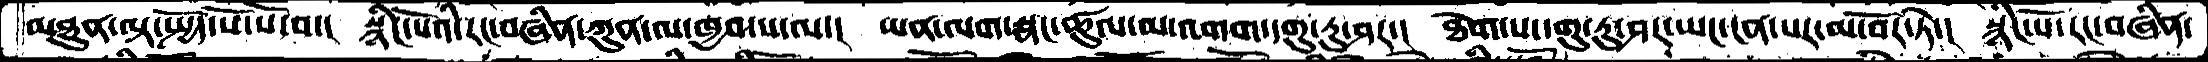མཐུན་ལྟ་སྤྱོད་སོ་སོ་བ་།  སྙིང་པོའི་རང་བཞིན་ཀུན་ལ་ཁྱབ་པ་ལ་།  ཡན་ལག་སྣང་ཚུལ་མ་འགག་དགུ་རུ་ཤར་།  ཐེག་པ་དགུ་རུ་ཤར་ཡང་ངན་པར་མ་བོར་ཏེ་།  སྙིང་པོ་རང་བཞིན་
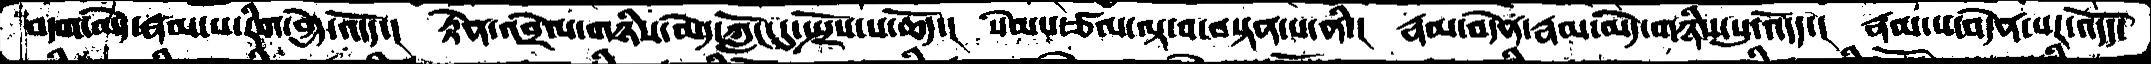བདག་མེད་རྣམ་པ་རིག་བྱེད་འདོད་།  རྟེན་འབྲེལ་གཉིས་མེད་ཀློང་དུ་སྤྲོས་པ་ཆོད་།  སེམས་ཙལ་ལྟ་བ་བསྟན་པ་ནི་།  རྣམ་བདེན་རྣམ་མེད་གཉིས་སུ་འདོད་།  རྣམ་པ་བདེན་པར་འདོད་
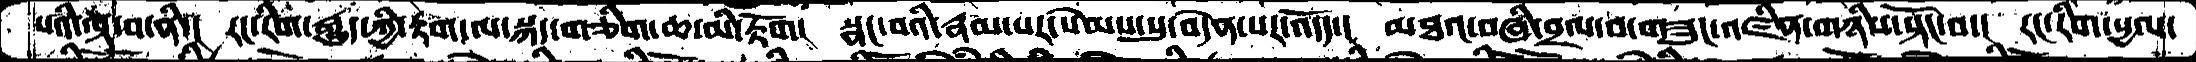པའི་ལྟ་བ་ནི་།  རང་རིག་རྒྱུད་ཀྱི་རྟག་ལ་སྐད་གཅིག་ཆ་མི་རྟོག་།  སྣང་བའི་རྣམ་པར་སེམས་སུ་བདེན་པར་འདོད་།  མཐའ་བཞི་བྲལ་བ་གཟུང་འཛིན་གཉིས་སྟོང་བ་།  རང་རིག་སྱལ་
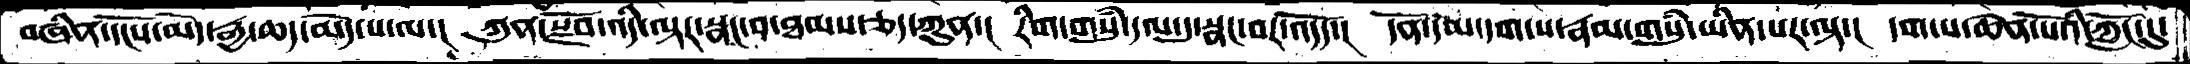བཞིན་དངོས་མེད་རྒྱ་ཆད་མེད་པ་ལ་།  ཀུན་སྫོབ་འདི་ལྟར་སྣང་བ་ཐམས་ཅད་ཀུན་།  རིག་གསུཾ་དལ་དུ་སྣང་བར་འདོད་།  དོན་དམ་དག་པ་རྣམ་གསུཾ་ཡིན་པར་ལྟ་།  དག་པ་ཆེན་པོའི་ཀློང་དུ་
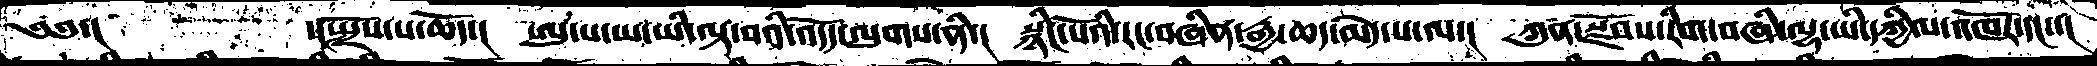༄༅་།    ་།སྤྲོས་པ་ཆོད་།  ཨུ་པ་ཡ་ཡི་ལྟ་བའི་འདོད་ལུགས་ནི་།  སྙིང་པོའི་རང་བཞིན་རྒྱ་ཆད་མེད་པ་ལ་།  ཀུན་སྫོབ་རིག་བཞི་ལྷ་ཡི་དཀྱིལ་འཁོར་དང་་།
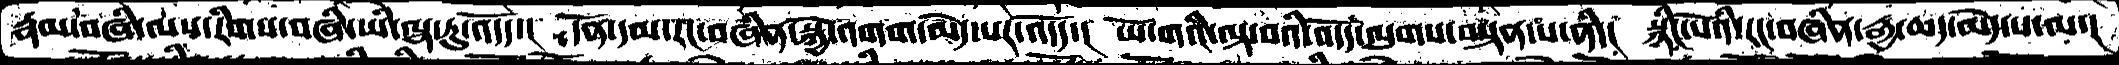རྣམ་བཞི་ལས་རིགས་བཞི་ཡི་ལྷ་རུ་འདོད་།  དོན་དམ་རང་བཞིན་སྐྱེ་འགག་མེད་པར་འདོད་།  ཡོ་གའི་ལྟ་བའི་འདོད་ལུགས་བསྟན་པ་ནི་།  སྙིང་པོའི་རང་བཞིན་རྒྱ་ཆད་མེད་པ་ལ་།
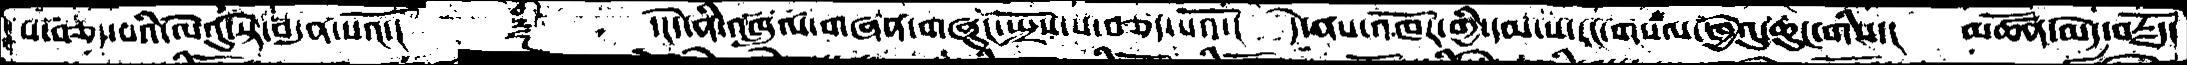པ་བཅད་པའི་ལེའུ་སྟེ་བདུན་པའོ་།   ༈  ་།དེ་ནི་འཁྲུལ་གཞན་གཞུང་སྤྲོས་པ་བཅད་པའོ་།  དེ་ནས་འཁོར་གྱི་དམ་པ་རང་གསལ་ཁྱེའུ་ཆུང་གིས་།  མཚོན་མེད་བརྗོད་
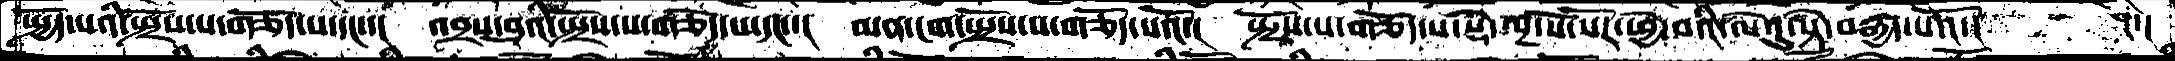སྤྱོད་པའི་སྤྲོས་པ་གཅོད་པ་དང་་།  འབྲས་བུའི་སྤྲོས་པ་གཅོད་པ་དང་་།  མན་ངག་སྤྲོས་པ་གཅོད་པའོ་།  སྤྲོས་པ་གཅོད་པ་སྟེ་ལྔ་སོ་སོར་ཕྱེ་བའི་ལེའུ་སྟེ་བརྒྱད་པའོ་།  ་།
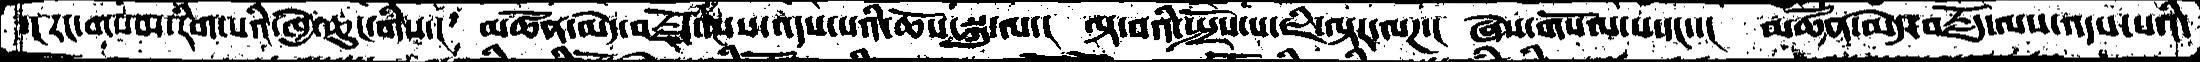་།རང་གསལ་རིག་པའི་ཁྱེ་ཆུང་གིས་།  མཚོན་མེད་བརྗོད་ལས་འདས་པའི་ཆོས་སྐུ་ལ་།  ལྟ་བའི་སྤྲོས་པ་ཇི་ལྟར་ལཌ་།  ཞེས་གསོལ་པ་དང་་།  མཚོན་མེད་བརྗོད་ལས་འདས་པའི་
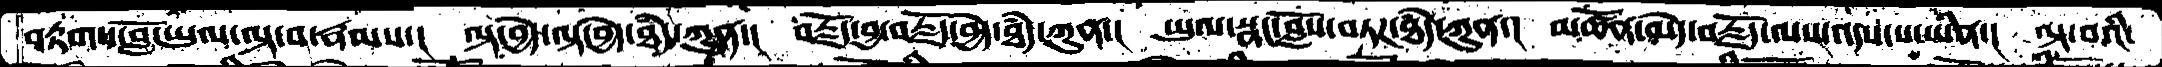བརྟགས་བློ་ཡུལ་ལྟ་བ་རྣམས་།  ལྟ་བྱེད་ལྟ་བྱེད་ཐདཾ་ཀུན་།  བརྗོད་བྱ་བརྗོད་བྱེད་ཐདཾ་ཀུན་།  ཡུལ་སྣང་བློས་བཏཌ་ཐདཾ་ཀུན་།  མཚོན་མེད་བརྗོད་ལས་འདས་པ་ཡིན་།  ལྟ་བའི་
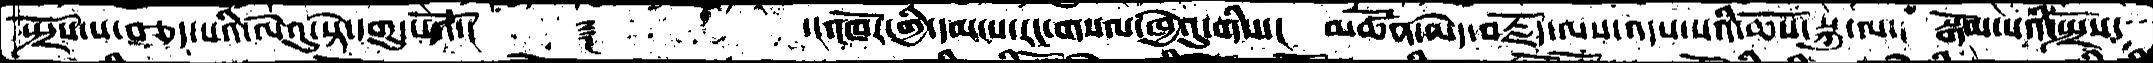སྤྲོས་པ་བཅད་པའི་ལེའུ་སྟེ་དགུ་པའོ་།    ༈     ་།འཁོར་གྱི་དམ་པ་རང་གསལ་ཁྱེའུ་གིས་།  མཚོན་མེད་བརྗོད་ལས་འདས་པའི་ཆོས་སྐུ་ལ་།  སྒོམ་པའི་སྤྲོས་
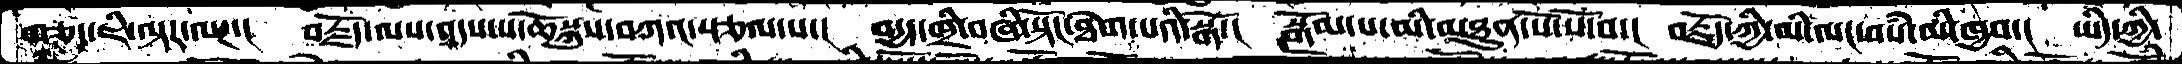གཅད་ཇི་ལྟར་ལཌ་།  བརྗོད་ལས་འདས་པ་ཆོསྐུས་བཀའ་སྩལ་པ་།  བདྱད་ཁྲི་བཞི་སྟོང་ཐེག་པའི་སྒོ་།  སྒོམ་པ་མི་མཐུན་སོ་སོ་བ་།  བརྗོད་ཀྱི་མི་ལང་བསཾ་མི་ཁྱབ་།  ཡིད་ཀྱི་
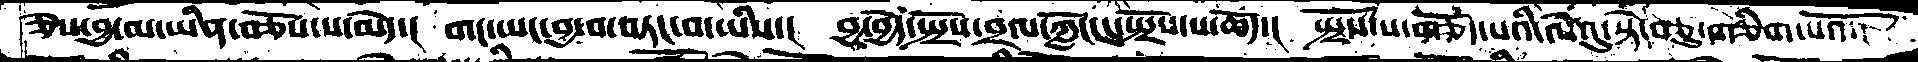ཅེས་བྱ་མ་ཡིན་བཅོས་པ་མེད་།  གང་ཡང་བྱ་བ་བཏང་བ་ཡིས་།  བྱ་བྱེད་སྤྲོས་བྲལ་ཀློང་དུ་སྤྲོས་པ་ཆོད་།  སྤྲོས་པ་གཅོད་པའི་ལེའུ་སྟེ་བཅུ་གཅིག་པའོ་།
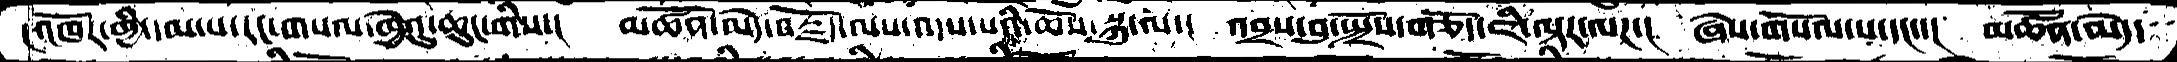འཁོར་གྱི་དམ་པ་རང་གསལ་ཁྱེའུ་ཆུང་གིས་།  མཚོན་མེད་བརྗོད་ལས་འདས་པའི་ཆོས་སྐུ་ལ་།  འབྲས་བུ་སྤྲོས་གཅོད་ཇི་ལྟར་ལཌ་།  ཞེས་གསོལ་པ་དང་་།  མཚོན་མེད་
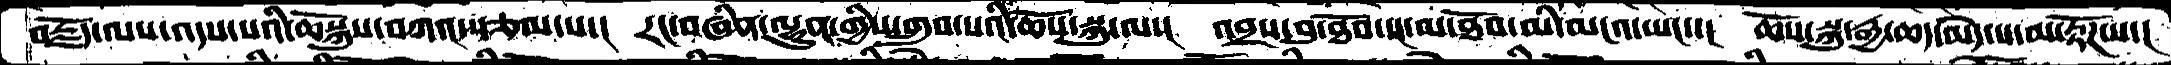བརྗོད་ལས་འདས་པའི་ཆོསྐུས་བཀའ་སྩལ་པ་།  རང་བཞིན་ལྷུན་གྱིས་གྲུབ་པའི་ཆོས་སྐུ་ལ་།  འབྲས་བུ་ཐོབ་དང་མ་ཐོབ་མི་མངའ་ཡང་་།  ཆོས་སྐུ་རྒྱ་ཆད་མེད་པ་མ་རྟོཌ་པ་།
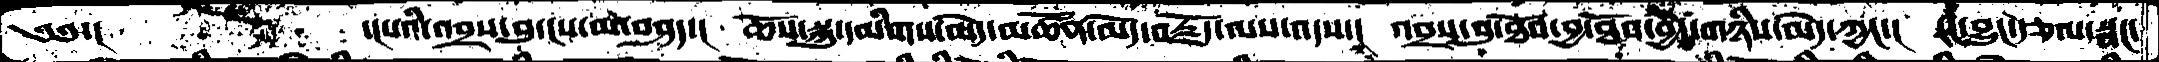༄༅་།        ་།པའི་འབྲས་བུ་ངས་མ་བཤད་།  ཆོས་སྐུ་དམིགས་མེད་མཚོན་མེད་བརྗོད་ལས་འདས་།  འབྲས་བུ་ཐོབ་བྱ་ཐོབ་བྱེད་གཉིས་མེད་ཀྱང་།  རང་བྱུང་རྩལ་སྣང་
